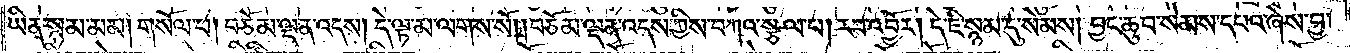ཡིན་སྙམ་མམ། གསོལ་པ། བཅོམ་ལྡན་འདས། དེ་ལྟ་མ་ལགས་སོ། །བཅོམ་ལྡན་འདས་ཀྱིས་བཀའ་སྩལ་པ། རབ་འབྱོར། དེ་ཇི་སྙམ་དུ་སེམས། བྱང་ཆུབ་སེམས་དཔའ་ཞེས་བྱ་
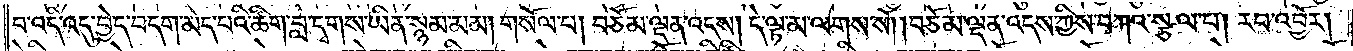བ་འདི་འདུ་བྱེད་བདག་མེད་པའི་ཚིག་བླ་དྭགས་ཡིན་སྙམ་མམ། གསོལ་པ། བཅོམ་ལྡན་འདས། དེ་ལྟ་མ་ལགས་སོ། །བཅོམ་ལྡན་འདས་ཀྱིས་བཀའ་སྩལ་པ། རབ་འབྱོར།
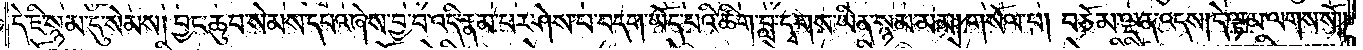དེ་ཇི་སྙམ་དུ་སེམས། བྱང་ཆུབ་སེམས་དཔའ་ཞེས་བྱ་བ་འདི་རྣམ་པར་ཤེས་པ་བདག་ཡོད་པའི་ཚིག་བླ་དྭགས་ཡིན་སྙམ་མམ། གསོལ་པ། བཅོམ་ལྡན་འདས། དེ་ལྟ་མ་ལགས་སོ༎
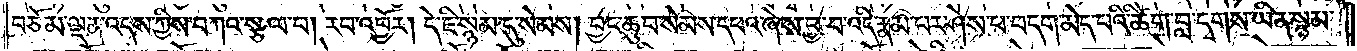བཅོམ་ལྡན་འདས་ཀྱིས་བཀའ་སྩལ་པ། རབ་འབྱོར། དེ་ཇི་སྙམ་དུ་སེམས། བྱང་ཆུབ་སེམས་དཔའ་ཞེས་བྱ་བ་འདི་རྣམ་པར་ཤེས་པ་བདག་མེད་པའི་ཚིག་བླ་དྭགས་ཡིན་སྙམ་
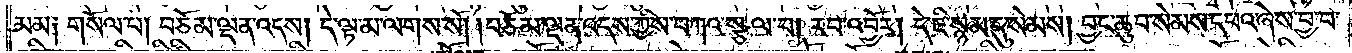མམ༑ གསོལ་པ། བཅོམ་ལྡན་འདས། དེ་ལྟ་མ་ལགས་སོ། །བཅོམ་ལྡན་འདས་ཀྱིས་བཀའ་སྩལ་པ། རབ་འབྱོར། དེ་ཇི་སྙམ་དུ་སེམས། བྱང་ཆུབ་སེམས་དཔའ་ཞེས་བྱ་བ་
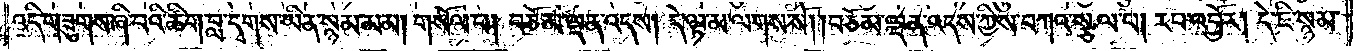འདི་གཟུགས་ཞི་བའི་ཚིག་བླ་དྭགས་ཡིན་སྙམ་མམ། གསོལ་པ། བཅོམ་ལྡན་འདས། དེ་ལྟ་མ་ལགས་སོ། །བཅོམ་ལྡན་འདས་ཀྱིས་བཀའ་སྩལ་པ། རབ་འབྱོར། དེ་ཇི་སྙམ་
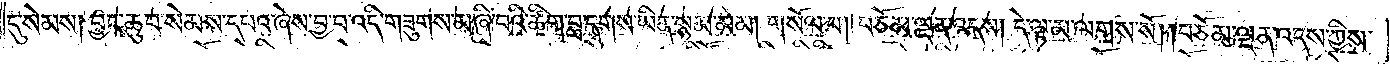དུ་སེམས། བྱང་ཆུབ་སེམས་དཔའ་ཞེས་བྱ་བ་འདི་གཟུགས་མ་ཞི་བའི་ཚིག་བླ་དྭགས་ཡིན་སྙམ་མམ། གསོལ་པ། བཅོམ་ལྡན་འདས། དེ་ལྟ་མ་ལགས་སོ། །བཅོམ་ལྡན་འདས་ཀྱིས་
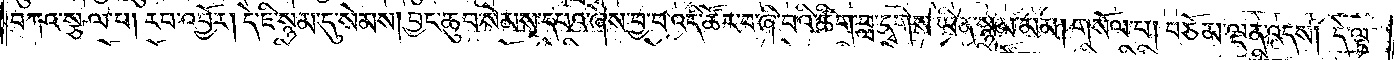བཀའ་སྩལ་པ། རབ་འབྱོར། དེ་ཇི་སྙམ་དུ་སེམས། བྱང་ཆུབ་སེམས་དཔའ་ཞེས་བྱ་བ་འདི་ཚོར་བ་ཞི་བའི་ཚིག་བླ་དྭགས་ཡིན་སྙམ་མམ། གསོལ་པ། བཅོམ་ལྡན་འདས། དེ་ལྟ་
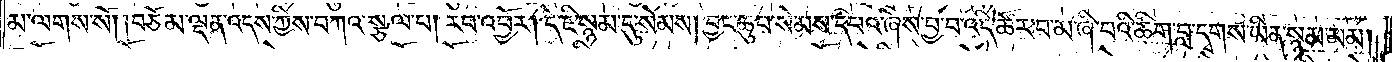མ་ལགས་སོ། །བཅོམ་ལྡན་འདས་ཀྱིས་བཀའ་སྩལ་པ། རབ་འབྱོར། དེ་ཇི་སྙམ་དུ་སེམས། བྱང་ཆུབ་སེམས་དཔའ་ཞེས་བྱ་བ་འདི་ཚོར་བ་མ་ཞི་བའི་ཚིག་བླ་དྭགས་ཡིན་སྙམ་མམ།
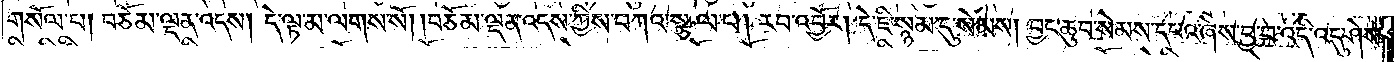གསོལ་པ། བཅོམ་ལྡན་འདས། དེ་ལྟ་མ་ལགས་སོ། །བཅོམ་ལྡན་འདས་ཀྱིས་བཀའ་སྩལ་པ། རབ་འབྱོར། དེ་ཇི་སྙམ་དུ་སེམས། བྱང་ཆུབ་སེམས་དཔའ་ཞེས་བྱ་བ་འདི་འདུ་ཤེས་
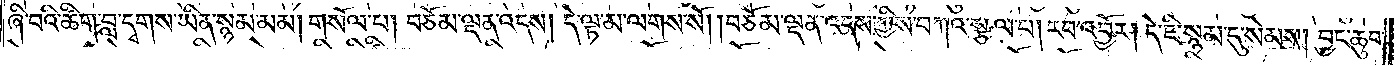ཞི་བའི་ཚིག་བླ་དྭགས་ཡིན་སྙམ་མམ། གསོལ་པ། བཅོམ་ལྡན་འདས། དེ་ལྟ་མ་ལགས་སོ། །བཅོམ་ལྡན་འདས་ཀྱིས་བཀའ་སྩལ་པ། རབ་འབྱོར། དེ་ཇི་སྙམ་དུ་སེམས། བྱང་ཆུབ་
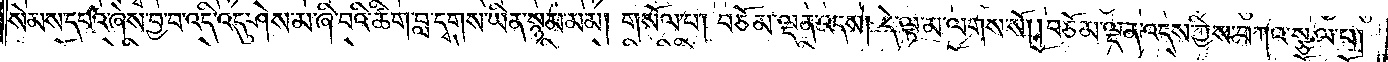སེམས་དཔའ་ཞེས་བྱ་བ་འདི་འདུ་ཤེས་མ་ཞི་བའི་ཚིག་བླ་དྭགས་ཡིན་སྙམ་མམ། གསོལ་པ། བཅོམ་ལྡན་འདས། དེ་ལྟ་མ་ལགས་སོ། །བཅོམ་ལྡན་འདས་ཀྱིས་བཀའ་སྩལ་པ།
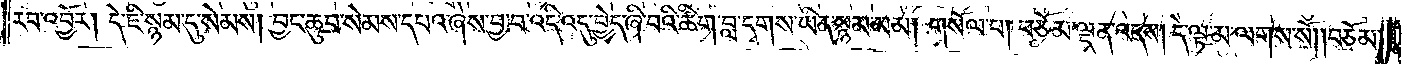རབ་འབྱོར། དེ་ཇི་སྙམ་དུ་སེམས། བྱང་ཆུབ་སེམས་དཔའ་ཞེས་བྱ་བ་འདི་འདུ་བྱེད་ཞི་བའི་ཚིག་བླ་དྭགས་ཡིན་སྙམ་མམ། གསོལ་པ། བཅོམ་ལྡན་འདས། དེ་ལྟ་མ་ལགས་སོ། །བཅོམ་
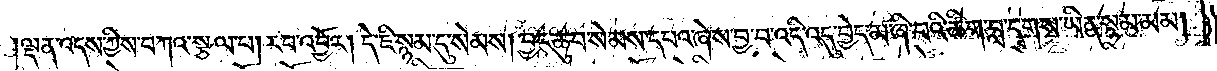ལྡན་འདས་ཀྱིས་བཀའ་སྩལ་པ། རབ་འབྱོར། དེ་ཇི་སྙམ་དུ་སེམས། བྱང་ཆུབ་སེམས་དཔའ་ཞེས་བྱ་བ་འདི་འདུ་བྱེད་མ་ཞི་བའི་ཚིག་བླ་དྭགས་ཡིན་སྙམ་མམ།
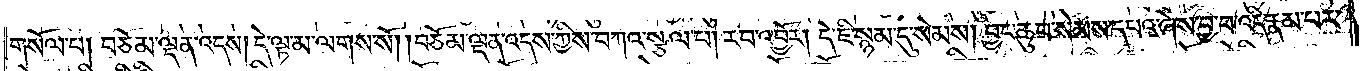གསོལ་པ། བཅོམ་ལྡན་འདས། དེ་ལྟ་མ་ལགས་སོ། །བཅོམ་ལྡན་འདས་ཀྱིས་བཀའ་སྩལ་པ། རབ་འབྱོར། དེ་ཇི་སྙམ་དུ་སེམས། བྱང་ཆུབ་སེམས་དཔའ་ཞེས་བྱ་བ་འདི་རྣམ་པར་
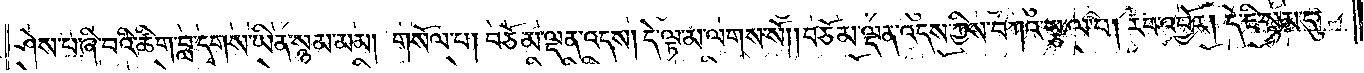ཤེས་པ་ཞི་བའི་ཚིག་བླ་དྭགས་ཡིན་སྙམ་མམ། གསོལ་པ། བཅོམ་ལྡན་འདས། དེ་ལྟ་མ་ལགས་སོ། །བཅོམ་ལྡན་འདས་ཀྱིས་བཀའ་སྩལ་པ། རབ་འབྱོར། དེ་ཇི་སྙམ་དུ་
